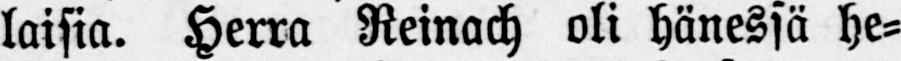laisia. Herra Reinach oli hänessä he-
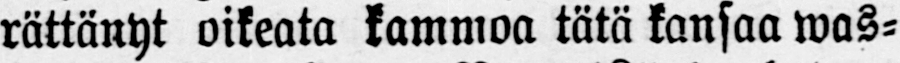rättänyt oikeata kammoa tätä kansaa was-
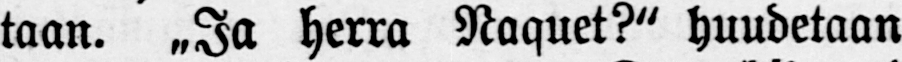taan. „Ja herra Naquet?" huudetaan
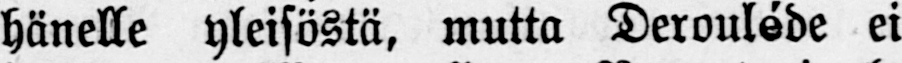hänelle yleisöstä, mutta Derouléde ei
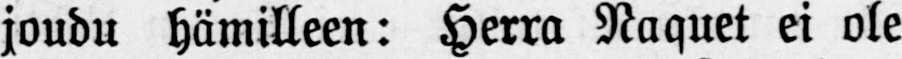joudu hämilleen: Herra Naquet ei ole
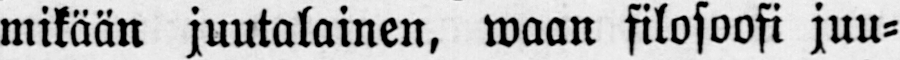mikään juutalainen, waan filosoofi juu-
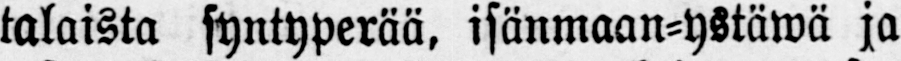talaista syntyperää, isänmaan-ystäwä ja
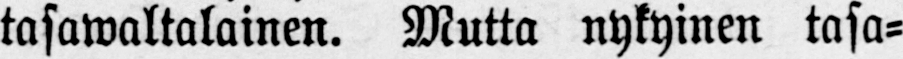tasawaltalainen. Mutta nykyinen tasa-
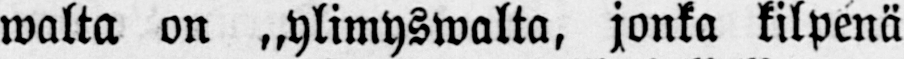walta on „ylimyswalta. jonka kilpenä
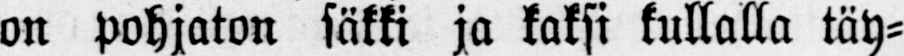on pohjaton säkki ja kaksi kullalla täy-
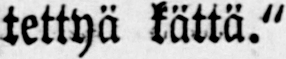tettyä kättä."
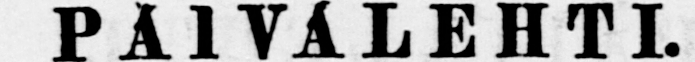PÄIVÄLEHTI.
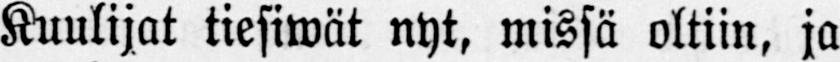Kuulijat tiesiwät nyt, missä oltiin, ja
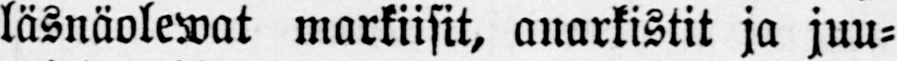läsnäolewat markiisit, anarkistit ja juu-
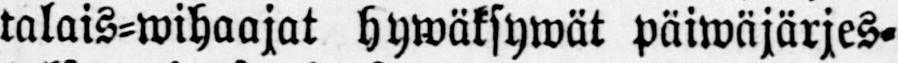talais-wihaajat hywäksywät päiwäjärjes-
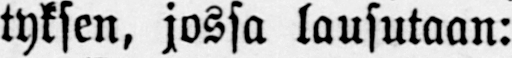tyksen, jossa lausutaan:
